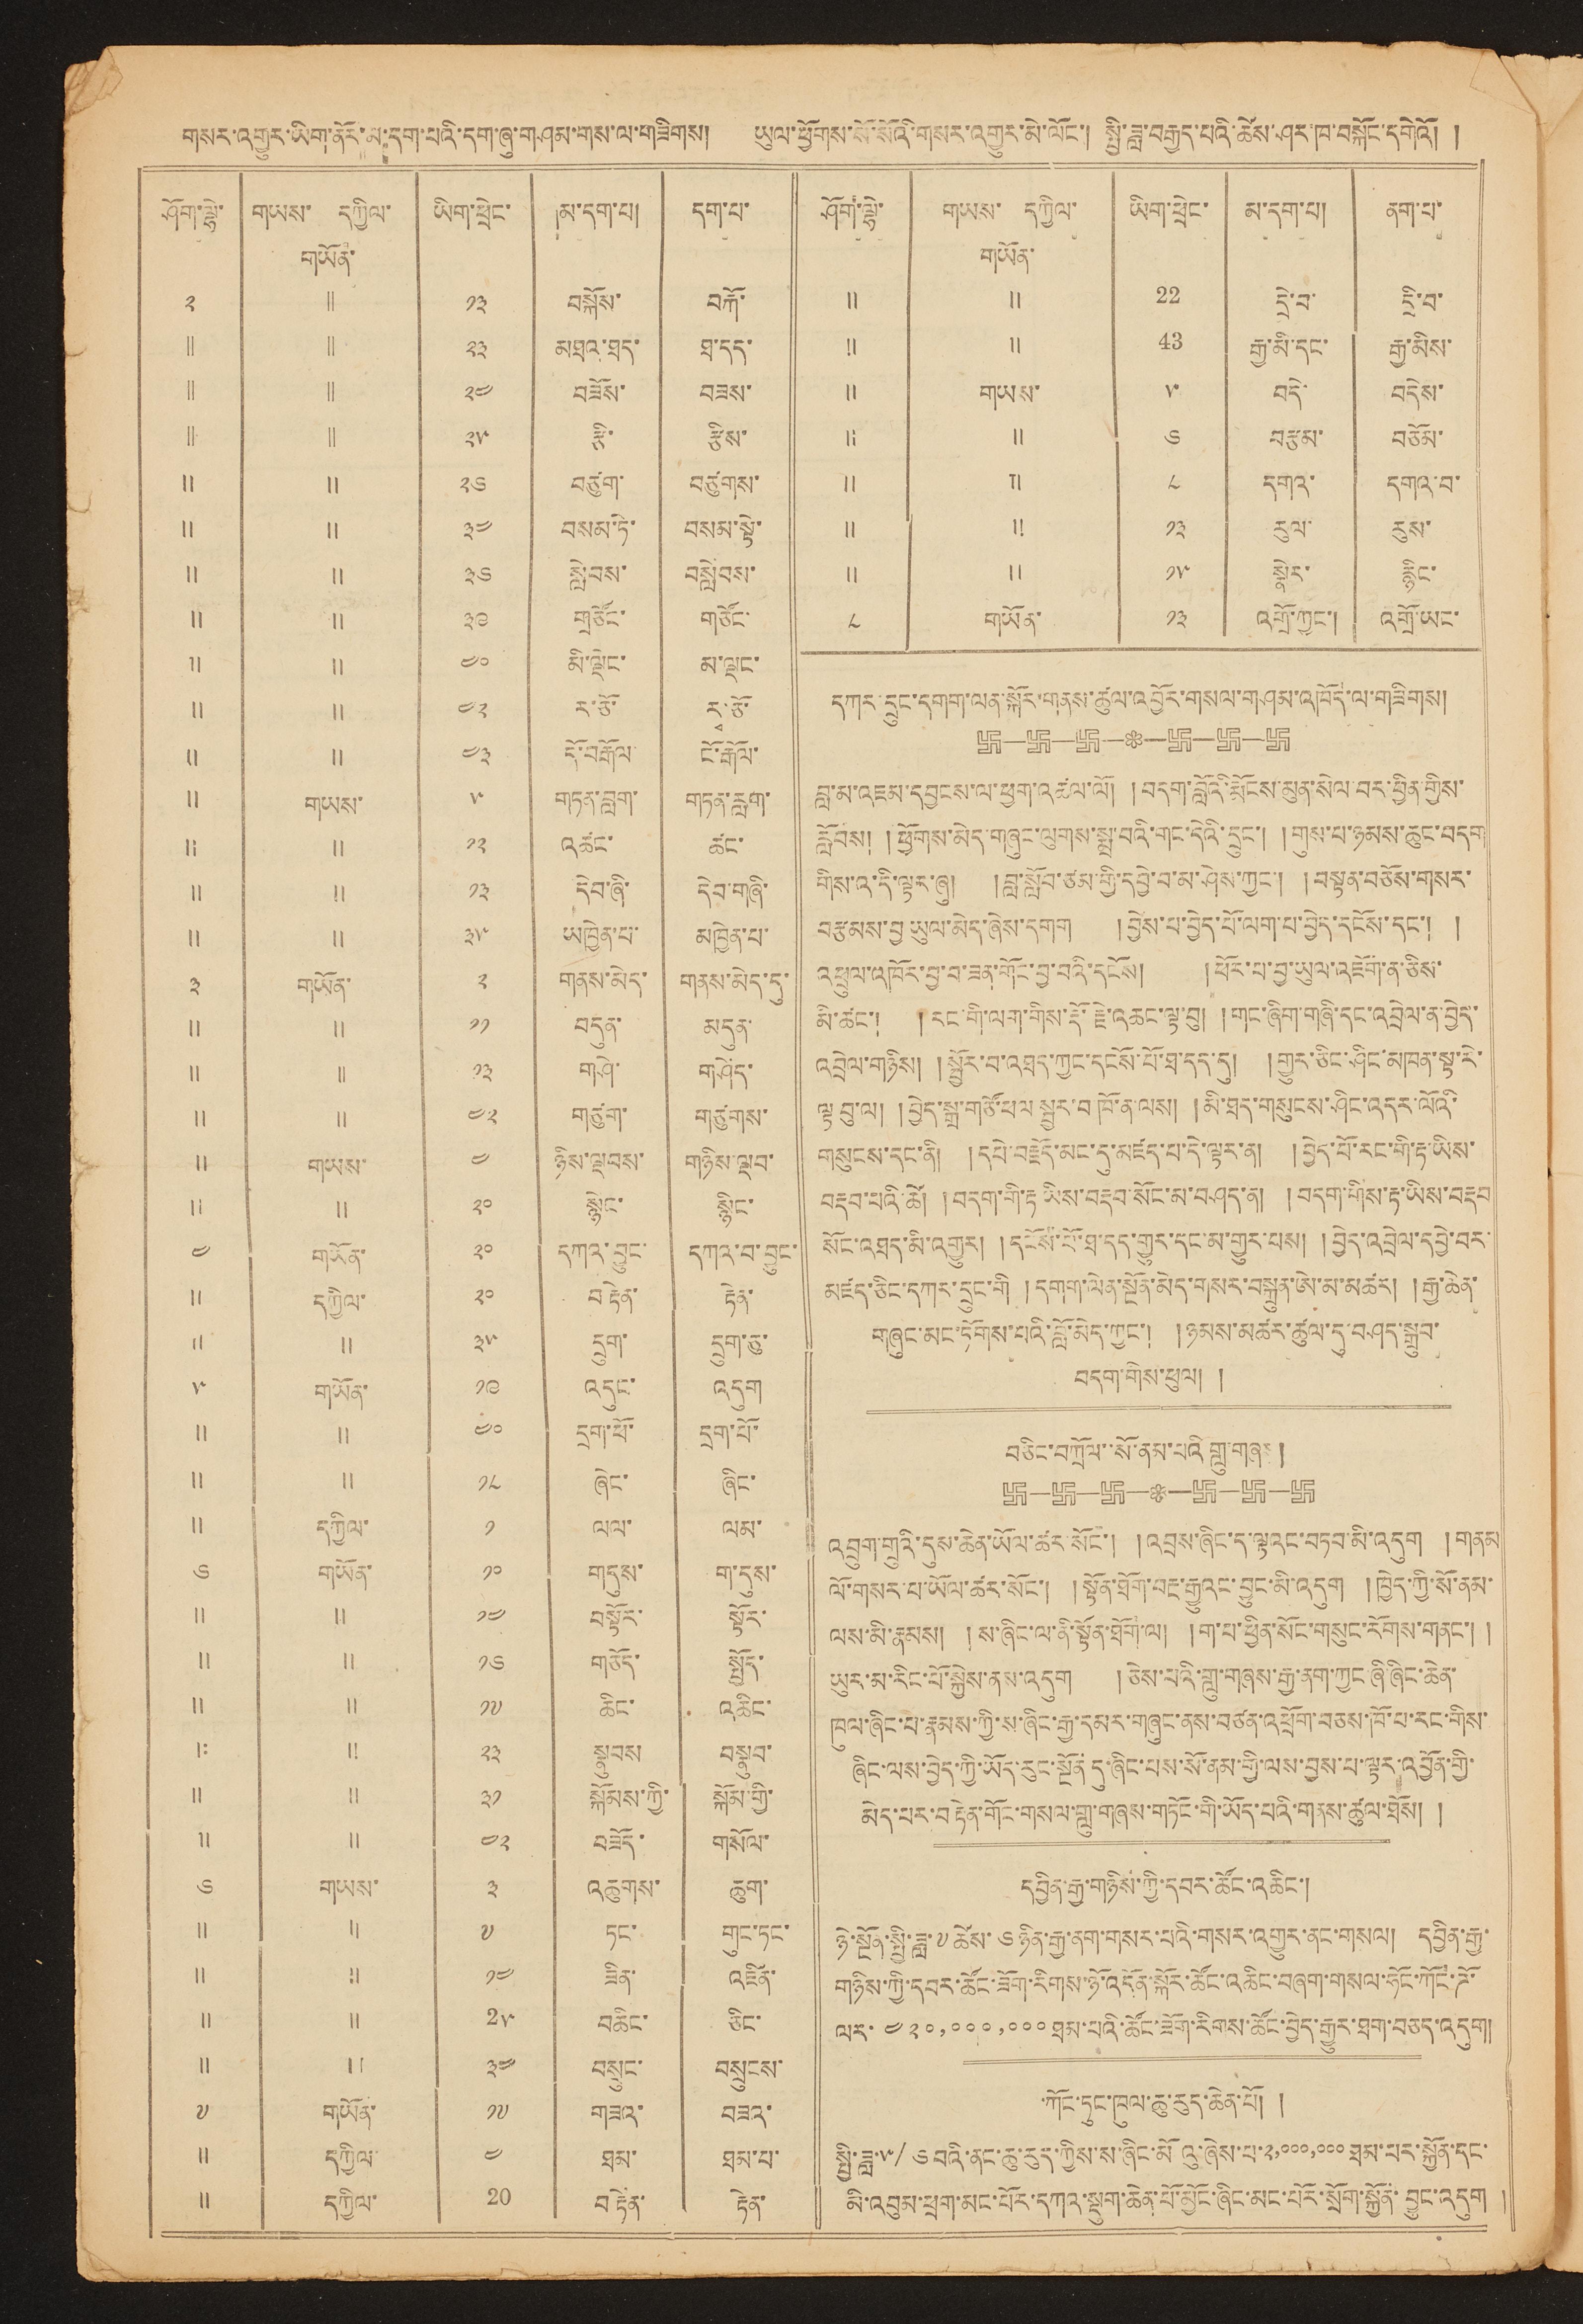གསར་འགྱུར་ཡིག་ནོར་མ་དག་པའི་དག་ཞུ་གཤམ་གས་ལ་གཟིགས། ཡུལ་ཕྱོགས་སོ་སོའི་གསར་འགྱུར་མེ་ལོང་། སྤྱི་ཟླ་བརྒྱད་པའི་ཚེས་ཤར་ཁ་བསྐོང་དགེའོ། །
དཀར་དྲུང་དགག་ལན་སྐོར་གནས་ཚུལ་འབྱོར་གསལ་གཤམ་འཁོད་ལ་གཟིགས།
བླ་མ་འཇམ་དབྱངས་ལ་ཕྱག་འཚལ་ལོ། །བདག་བློའི་རྨོངས་མུན་སེལ་བར་བྱིན་གྱིས་
རློབས། །ཕྱོགས་མེད་གཞུང་ལུགས་སྨྲ་བའི་གང་དེའི་དྲུང་། །གུས་པ་ཉམས་ཆུང་བདག
གིས་འ་དི་ལྟར་ཞུ། །བླ་སློབ་ཙམ་གྱི་དབྱེ་བ་མ་ཤེས་ཀྱང་། །བསྟན་བཅོས་གསར་
བརྩམས་བྱ་ཡུལ་མེད་ཞེས་དགག །བྱེས་པ་བྱེད་པོ་ལག་པ་བྱེད་དངོས་དང་། །
འཕྲུལ་འཁོར་བྱ་བ་ཟན་གོང་བྱ་བའི་དངོས། །ཕོར་པ་བྱ་ཡུལ་འཇོག་ན་ཅིས་
མི་ཚང་། །རང་གི་ལག་གིས་རྡོ་རྗེ་འཆང་ལྟ་བུ། །གང་ཞིག་གཞི་དང་འབྲེལ་ན་བྱེད་
འབྲེལ་གཉིས། །སྦྱོར་བ་འཐད་ཀྱང་དངོས་པོ་ཐ་དད་དུ། །གྱུར་ཅིང་ཤིང་མཁན་སྟ་རེ་
ལྟ་བུ་ལ་། །བྱེད་སྒྲ་གཙོ་ཕལ་སྦྱར་བ་ཁོ་ན་ལས། །མི་ཐད་གསུངས་ཤིང་འདར་ལོའི་
གསུངས་དང་ནི། །དཔེ་བརྗོད་མང་དུ་མཛད་པ་དེ་ལྟར་ན། །བྱེད་པོ་རང་གི་རྟ་ཡིས་
བརྡབ་པའི་ཚེ། །བདག་གི་རྟ་ཡིས་བརྡབ་སོང་མ་བཤད་ན། །བདག་གིས་རྟ་ཡིས་བརྡབ
སོང་འཐད་མི་འགྱུར། །དངོས་པོ་ཐ་དད་གྱུར་དང་མ་གྱུར་པས། །བྱེད་འབྲེལ་དབྱེ་བར་
མཛད་ཅིང་དཀར་དྲུང་གི །དགག་ལེན་སྔོན་མེད་གསར་བསྐྲུན་ཨེ་མ་མཚར། །རྒྱ་ཆེན་
གཞུང་མང་ཏོགས་པའི་བློ་མེད་ཀྱང་། །ཉམས་མཚར་ཚུལ་དུ་བཤད་སྒྲུབ་
བདག་གིས་ཕུལ། །
བཅིང་བཀྲོལ་སོ་ནས་པའི་གླུ་གཞས།
འབྲུག་གྲུའི་དུས་ཆེན་ཡོལ་ཚར་སོང་། །འབྲས་ཞིང་ད་ལྟའང་བཏབ་མི་འདུག །གནམ
ལོ་གསར་པ་ཡོལ་ཚར་སོང་། །སྟོན་ཐོག་བརྔ་རྒྱུའང་བྱུང་མི་འདུག །ཁྱེད་ཀྱི་སོ་ནམ་
ལས་མི་རྣམས། །ས་ཞིང་ལ་ནི་སྟོན་ཐོག་ལ། །ག་པ་ཕྱིན་སོང་གསུང་རོགས་གནང་། །
ཡུར་མ་རིང་པོ་སྐྱེས་ནས་འདུག །ཅེས་པའི་གླུ་གཞས་རྒྱ་ནག་ཀྱང་ཞི་ཞིང་ཆེན་
ཁུལ་ཞིང་པ་རྣམས་ཀྱི་ས་ཞིང་རྒྱ་དམར་གཞུང་ནས་བཙན་འཕྲོག་བཅས་ཁོ་པ་རང་གིས་
ཞིང་ལས་བྱེད་ཀྱི་ཡོད་རུང་སྔོན་དུ་ཞིང་པས་སོ་ནམ་གྱི་ལས་བྱས་པ་ལྟར་འབྱོན་གྱི་
མེད་པར་བརྟེན་གོང་གསལ་གླུ་གཞས་གཏོང་གི་ཡོད་པའི་གནས་ཚུལ་ཐོས། །
དབྱིན་རྒྱ་གཉིས་ཀྱི་དབར་ཚོང་འཆིང་།
ཉེ་སྔོན་སྤྱི་ཟླ་༧ ཚེས་༦ ཉིན་རྒྱ་ནག་གསར་པའི་གསར་འགྱུར་ནང་གསལ། དབྱིན་རྒྱ་
གཉིས་ཀྱི་དབར་ཚོང་ཟོག་རིགས་ཉོ་འདོན་སྐོར་ཚོང་འཆིང་བཞག་གསལ་ཧོང་ཀོང་ཌོ་
ལར་ ༤༢༠,༠༠༠,༠༠༠ ཐམ་པའི་ཚོང་ཟོག་རིགས་ཚོང་བྱེད་རྒྱུར་ཐག་བཅད་འདུག།
ཀོང་ཏུང་ཁུལ་ཆུ་རུད་ཆེན་པོ། །
སྤྱི་ཟླ་༥/༦ བའི་ནང་ཆུ་རུད་ཀྱིས་ས་ཞིང་མོའུ་ཞེས་པ་༢,༠༠༠,༠༠༠ ཐམ་པར་སྐྱོན་དང་
མི་འབུམ་ཕྲག་མང་པོར་དཀའ་སྡུག་ཆེན་པོ་མྱོང་ཞིང་མང་པོར་སྲོག་སྐྱོན་བྱུང་འདུག །
